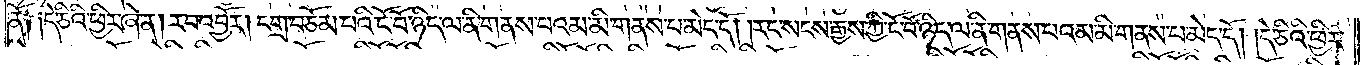ནོ༑ ༑དེ་ཅིའི་ཕྱིར་ཞེ་ན། རབ་འབྱོར། དགྲ་བཅོམ་པའི་ངོ་བོ་ཉིད་ལ་ནི་གནས་པ་འམ་མི་གནས་པ་མེད་དོ། །རང་སངས་རྒྱས་ཀྱི་ངོ་བོ་ཉིད་ལ་ནི་གནས་པ་འམ་མི་གནས་པ་མེད་དོ། །དེ་ཅིའི་ཕྱིར་
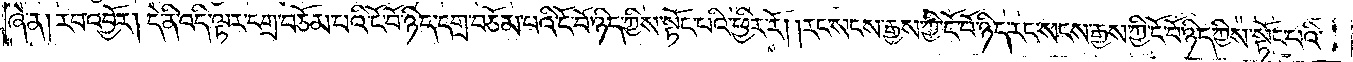ཞེ་ན། རབ་འབྱོར། དེ་ནི་འདི་ལྟར་དགྲ་བཅོམ་པའི་ངོ་བོ་ཉིད་དགྲ་བཅོམ་པའི་ངོ་བོ་ཉིད་ཀྱིས་སྟོང་པའི་ཕྱིར་རོ། །རང་སངས་རྒྱས་ཀྱི་ངོ་བོ་ཉིད་རང་སངས་རྒྱས་ཀྱི་ངོ་བོ་ཉིད་ཀྱིས་སྟོང་པའི་
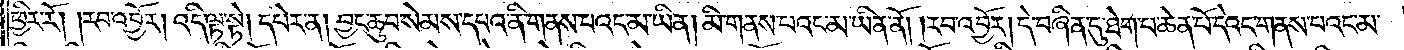ཕྱིར་རོ། །རབ་འབྱོར། འདི་ལྟ་སྟེ། དཔེར་ན། བྱང་ཆུབ་སེམས་དཔའ་ནི་གནས་པའང་མ་ཡིན། མི་གནས་པའང་མ་ཡིན་ནོ། །རབ་འབྱོར། དེ་བཞིན་དུ་ཐེག་པ་ཆེན་པོ་དེའང་གནས་པའང་མ་
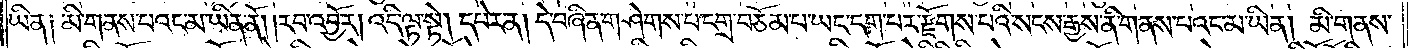ཡིན༑ མི་གནས་པའང་མ་ཡིན་ནོ། །རབ་འབྱོར། འདི་ལྟ་སྟེ། དཔེར་ན། དེ་བཞིན་གཤེགས་པ་དགྲ་བཅོམ་པ་ཡང་དག་པར་རྫོགས་པའི་སངས་རྒྱས་ནི་གནས་པའང་མ་ཡིན། མི་གནས་
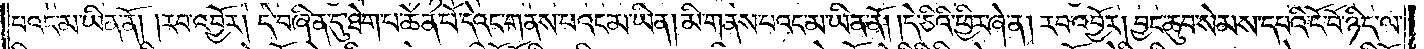པའང་མ་ཡིན་ནོ། །རབ་འབྱོར། དེ་བཞིན་དུ་ཐེག་པ་ཆེན་པོ་དེའང་གནས་པའང་མ་ཡིན། མི་གནས་པའང་མ་ཡིན་ནོ། །དེ་ཅིའི་ཕྱིར་ཞེ་ན། རབ་འབྱོར། བྱང་ཆུབ་སེམས་དཔའི་ངོ་བོ་ཉིད་ལ་
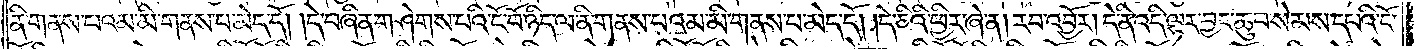ནི་གནས་པའམ་མི་གནས་པ་མེད་དོ། །དེ་བཞིན་གཤེགས་པའི་ངོ་བོ་ཉིད་ལ་ནི་གནས་པའམ་མི་གནས་པ་མེད་དོ། །དེ་ཅིའི་ཕྱིར་ཞེ་ན། རབ་འབྱོར། དེ་ནི་འདི་ལྟར་བྱང་ཆུབ་སེམས་དཔའི་ངོ་
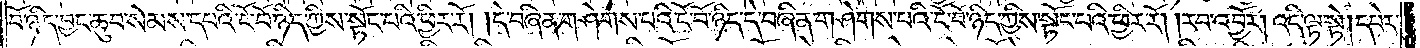བོ་ཉིད་བྱང་ཆུབ་སེམས་དཔའི་ངོ་བོ་ཉིད་ཀྱིས་སྟོང་པའི་ཕྱིར་རོ། །དེ་བཞིན་གཤེགས་པའི་ངོ་བོ་ཉིད་དེ་བཞིན་གཤེགས་པའི་ངོ་བོ་ཉིད་ཀྱིས་སྟོང་པའི་ཕྱིར་རོ། །རབ་འབྱོར། འདི་ལྟ་སྟེ། དཔེར་
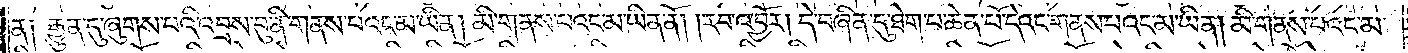ན༑ རྒྱུན་དུ་ཞུགས་པའི་འབྲས་བུ་ནི་གནས་པའང་མ་ཡིན། མི་གནས་པའང་མ་ཡིན་ནོ། །རབ་འབྱོར། དེ་བཞིན་དུ་ཐེག་པ་ཆེན་པོ་དེའང་གནས་པའང་མ་ཡིན། མི་གནས་པའང་མ་
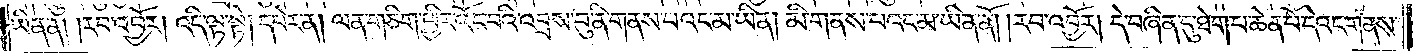ཡིན་ནོ། །རབ་འབྱོར། འདི་ལྟ་སྟེ། དཔེར་ན། ལན་ཅིག་ཕྱིར་འོང་བའི་འབྲས་བུ་ནི་གནས་པའང་མ་ཡིན། མི་གནས་པའང་མ་ཡིན་ནོ། །རབ་འབྱོར། དེ་བཞིན་དུ་ཐེག་པ་ཆེན་པོ་དེའང་གནས་
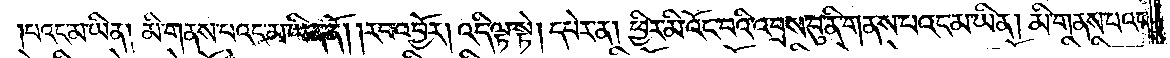།པའང་མ་ཡིན། མི་གནས་པའང་མ་ཡིན་ནོ། །རབ་འབྱོར། འདི་ལྟ་སྟེ། དཔེར་ན། ཕྱིར་མི་འོང་བའི་འབྲས་བུ་ནི་གནས་པའང་མ་ཡིན། མི་གནས་པའང་
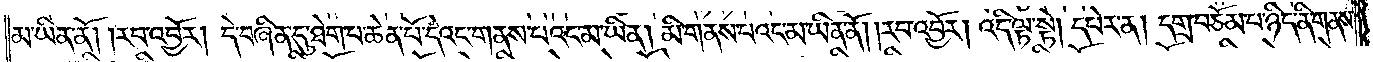མ་ཡིན་ནོ། །རབ་འབྱོར། དེ་བཞིན་དུ་ཐེག་པ་ཆེན་པོ་དེའང་གནས་པའང་མ་ཡིན། མི་གནས་པའང་མ་ཡིན་ནོ། །རབ་འབྱོར། འདི་ལྟ་སྟེ། དཔེར་ན། དགྲ་བཅོམ་པ་ཉིད་ནི་གནས་
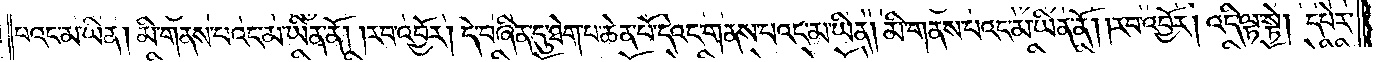པའང་མ་ཡིན། མི་གནས་པའང་མ་ཡིན་ནོ། །རབ་འབྱོར། དེ་བཞིན་དུ་ཐེག་པ་ཆེན་པོ་དེའང་གནས་པའང་མ་ཡིན། མི་གནས་པའང་མ་ཡིན་ནོ། །རབ་འབྱོར། འདི་ལྟ་སྟེ། དཔེར་
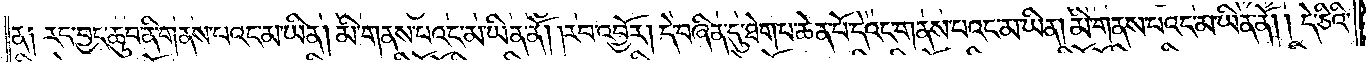ན༑ རང་བྱང་ཆུབ་ནི་གནས་པའང་མ་ཡིན། མི་གནས་པའང་མ་ཡིན་ནོ། །རབ་འབྱོར། དེ་བཞིན་དུ་ཐེག་པ་ཆེན་པོ་དེའང་གནས་པའང་མ་ཡིན། མི་གནས་པའང་མ་ཡིན་ནོ། །དེ་ཅིའི་
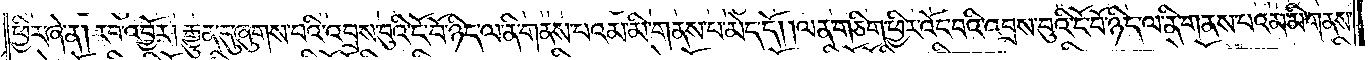ཕྱིར་ཞེ་ན། རབ་འབྱོར། རྒྱུན་དུ་ཞུགས་པའི་འབྲས་བུའི་ངོ་བོ་ཉིད་ལ་ནི་གནས་པའམ་མི་གནས་པ་མེད་དོ། །ལན་ཅིག་ཕྱིར་འོང་བའི་འབྲས་བུའི་ངོ་བོ་ཉིད་ལ་ནི་གནས་པའམ་མི་གནས་
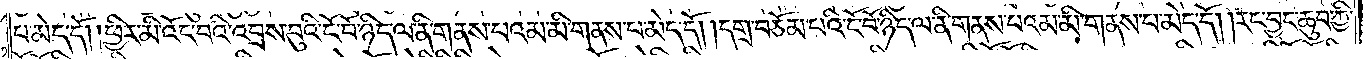པ་མེད་དོ། །ཕྱིར་མི་འོང་བའི་འབྲས་བུའི་ངོ་བོ་ཉིད་ལ་ནི་གནས་པའམ་མི་གནས་པ་མེད་དོ། །དགྲ་བཅོམ་པའི་ངོ་བོ་ཉིད་ལ་ནི་གནས་པའམ་མི་གནས་པ་མེད་དོ། །རང་བྱང་ཆུབ་ཀྱི་
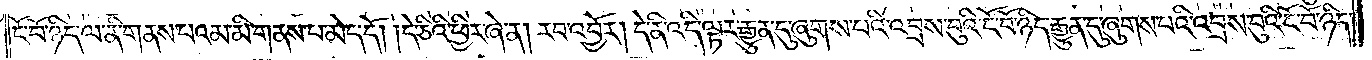ངོ་བོ་ཉིད་ལ་ནི་གནས་པའམ་མི་གནས་པ་མེད་དོ། །དེ་ཅིའི་ཕྱིར་ཞེ་ན། རབ་འབྱོར། དེ་ནི་འདི་ལྟར་རྒྱུན་དུ་ཞུགས་པའི་འབྲས་བུའི་ངོ་བོ་ཉིད་རྒྱུན་དུ་ཞུགས་པའི་འབྲས་བུའི་ངོ་བོ་ཉིད་
